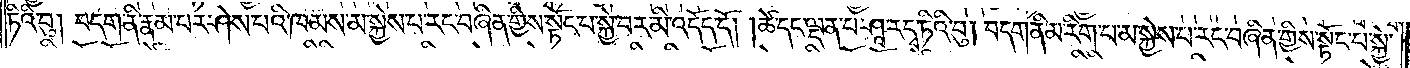ཏིའི་བུ། བདག་ནི་རྣམ་པར་ཤེས་པའི་ཁམས་མ་སྐྱེས་པ་རང་བཞིན་གྱིས་སྟོང་པ་སྐྱེ་བར་མི་འདོད་དོ། །ཚེ་དང་ལྡན་པ་ཤཱ་ར་དྭ་ཏིའི་བུ། བདག་ནི་མ་རིག་པ་མ་སྐྱེས་པ་རང་བཞིན་གྱིས་སྟོང་པ་སྐྱེ་
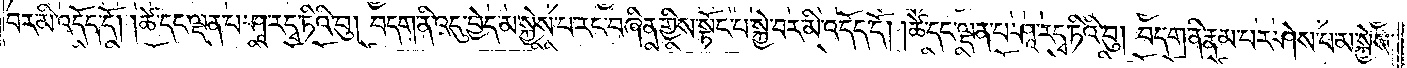བར་མི་འདོད་དོ། །ཚེ་དང་ལྡན་པ་ཤཱ་ར་དྭ་ཏིའི་བུ། བདག་ནི་འདུ་བྱེད་མ་སྐྱེས་པ་རང་བཞིན་གྱིས་སྟོང་པ་སྐྱེ་བར་མི་འདོད་དོ། །ཚེ་དང་ལྡན་པ་ཤཱ་ར་དྭ་ཏིའི་བུ། བདག་ནི་རྣམ་པར་ཤེས་པ་མ་སྐྱེས་
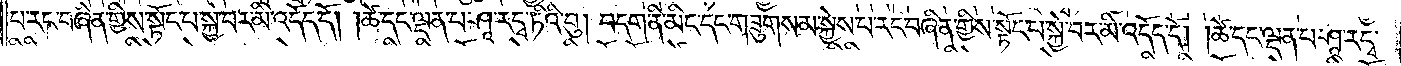པ་རང་བཞིན་གྱིས་སྟོང་པ་སྐྱེ་བར་མི་འདོད་དོ། །ཚེ་དང་ལྡན་པ་ཤཱ་ར་དྭ་ཏིའི་བུ། བདག་ནི་མིང་དང་གཟུགས་མ་སྐྱེས་པ་རང་བཞིན་གྱིས་སྟོང་པ་སྐྱེ་བར་མི་འདོད་དོ། །ཚེ་དང་ལྡན་པ་ཤཱ་ར་དྭ་
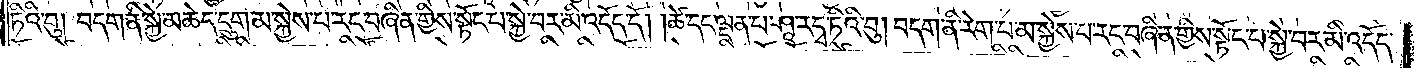ཏིའི་བུ། བདག་ནི་སྐྱེ་མཆེད་དྲུག་མ་སྐྱེས་པ་རང་བཞིན་གྱིས་སྟོང་པ་སྐྱེ་བར་མི་འདོད་དོ། །ཚེ་དང་ལྡན་པ་ཤཱ་ར་དྭ་ཏིའི་བུ། བདག་ནི་རེག་པ་མ་སྐྱེས་པ་རང་བཞིན་གྱིས་སྟོང་པ་སྐྱེ་བར་མི་འདོད་
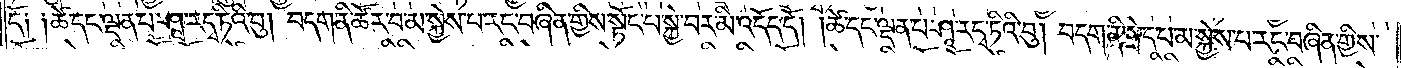དོ༏ ༏ཚེ་དང་ལྡན་པ་ཤཱ་ར་དྭ་ཏིའི་བུ། བདག་ནི་ཚོར་བ་མ་སྐྱེས་པ་རང་བཞིན་གྱིས་སྟོང་པ་སྐྱེ་བར་མི་འདོད་དོ། །ཚེ་དང་ལྡན་པ་ཤཱ་ར་དྭ་ཏིའི་བུ། བདག་ནི་སྲེད་པ་མ་སྐྱེས་པ་རང་བཞིན་གྱིས་
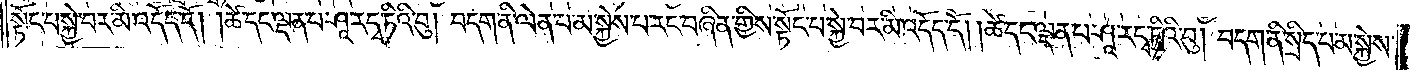སྟོང་པ་སྐྱེ་བར་མི་འདོད་དོ། །ཚེ་དང་ལྡན་པ་ཤཱ་ར་དྭ་ཏིའི་བུ། བདག་ནི་ལེན་པ་མ་སྐྱེས་པ་རང་བཞིན་གྱིས་སྟོང་པ་སྐྱེ་བར་མི་འདོད་དོ། །ཚེ་དང་ལྡན་པ་ཤཱ་ར་དྭ་ཏིའི་བུ། བདག་ནི་སྲིད་པ་མ་སྐྱེས་
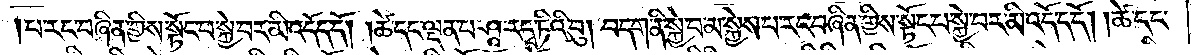པ་རང་བཞིན་གྱིས་སྟོང་པ་སྐྱེ་བར་མི་འདོད་དོ། །ཚེ་དང་ལྡན་པ་ཤཱ་ར་དྭ་ཏིའི་བུ། བདག་ནི་སྐྱེ་བ་མ་སྐྱེས་པ་རང་བཞིན་གྱིས་སྟོང་པ་སྐྱེ་བར་མི་འདོད་དོ། །ཚེ་དང་
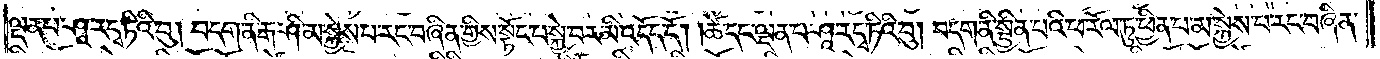ལྡན་པ་ཤཱ་ར་དྭ་ཏིའི་བུ། བདག་ནི་རྒ་ཤི་མ་སྐྱེས་པ་རང་བཞིན་གྱིས་སྟོང་པ་སྐྱེ་བར་མི་འདོད་དོ། །ཚེ་དང་ལྡན་པ་ཤཱ་ར་དྭ་ཏིའི་བུ། བདག་ནི་སྦྱིན་པའི་ཕ་རོལ་ཏུ་ཕྱིན་པ་མ་སྐྱེས་པ་རང་བཞིན་
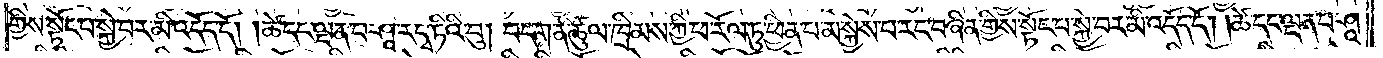གྱིས་སྟོང་པ་སྐྱེ་བར་མི་འདོད་དོ། །ཚེ་དང་ལྡན་པ་ཤཱ་ར་དྭ་ཏིའི་བུ། བདག་ནི་ཚུལ་ཁྲིམས་ཀྱི་ཕ་རོལ་ཏུ་ཕྱིན་པ་མ་སྐྱེས་པ་རང་བཞིན་གྱིས་སྟོང་པ་སྐྱེ་བར་མི་འདོད་དོ། །ཚེ་དང་ལྡན་པ་ཤཱ་
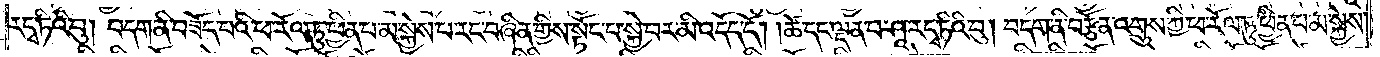ར་དྭ་ཏིའི་བུ། བདག་ནི་བཟོད་པའི་ཕ་རོལ་ཏུ་ཕྱིན་པ་མ་སྐྱེས་པ་རང་བཞིན་གྱིས་སྟོང་པ་སྐྱེ་བར་མི་འདོད་དོ། །ཚེ་དང་ལྡན་པ་ཤཱ་ར་དྭ་ཏིའི་བུ། བདག་ནི་བརྩོན་འགྲུས་ཀྱི་ཕ་རོལ་ཏུ་ཕྱིན་པ་མ་སྐྱེས་
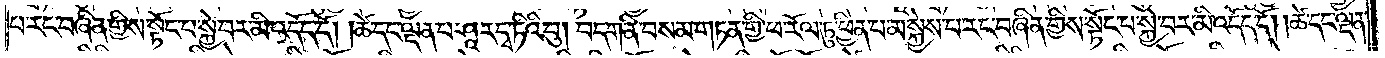པ་རང་བཞིན་གྱིས་སྟོང་པ་སྐྱེ་བར་མི་འདོད་དོ། །ཚེ་དང་ལྡན་པ་ཤཱ་ར་དྭ་ཏིའི་བུ། བདག་ནི་བསམ་གཏན་གྱི་ཕ་རོལ་ཏུ་ཕྱིན་པ་མ་སྐྱེས་པ་རང་བཞིན་གྱིས་སྟོང་པ་སྐྱེ་བར་མི་འདོད་དོ། །ཚེ་དང་ལྡན་
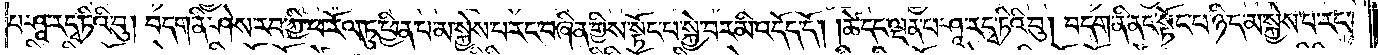པ་ཤཱ་ར་དྭ་ཏིའི་བུ། བདག་ནི་ཤེས་རབ་ཀྱི་ཕ་རོལ་ཏུ་ཕྱིན་པ་མ་སྐྱེས་པ་རང་བཞིན་གྱིས་སྟོང་པ་སྐྱེ་བར་མི་འདོད་དོ། །ཚེ་དང་ལྡན་པ་ཤཱ་ར་དྭ་ཏིའི་བུ། བདག་ནི་ནང་སྟོང་པ་ཉིད་མ་སྐྱེས་པ་རང་
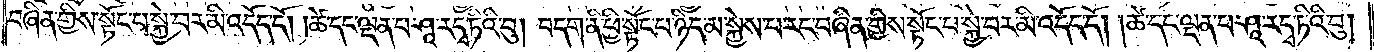བཞིན་གྱིས་སྟོང་པ་སྐྱེ་བར་མི་འདོད་དོ། །ཚེ་དང་ལྡན་པ་ཤཱ་ར་དྭ་ཏིའི་བུ། བདག་ནི་ཕྱི་སྟོང་པ་ཉིད་མ་སྐྱེས་པ་རང་བཞིན་གྱིས་སྟོང་པ་སྐྱེ་བར་མི་འདོད་དོ། །ཚེ་དང་ལྡན་པ་ཤཱ་ར་དྭ་ཏིའི་བུ།
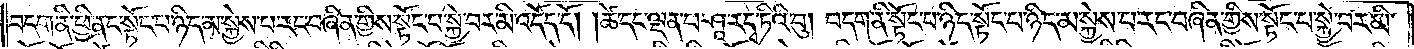བདག་ནི་ཕྱི་ནང་སྟོང་པ་ཉིད་མ་སྐྱེས་པ་རང་བཞིན་གྱིས་སྟོང་པ་སྐྱེ་བར་མི་འདོད་དོ། །ཚེ་དང་ལྡན་པ་ཤཱ་ར་དྭ་ཏིའི་བུ། བདག་ནི་སྟོང་པ་ཉིད་སྟོང་པ་ཉིད་མ་སྐྱེས་པ་རང་བཞིན་གྱིས་སྟོང་པ་སྐྱེ་བར་མི་
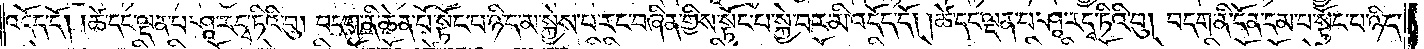འདོད་དོ། །ཚེ་དང་ལྡན་པ་ཤཱ་ར་དྭ་ཏིའི་བུ། བདག་ནི་ཆེན་པོ་སྟོང་པ་ཉིད་མ་སྐྱེས་པ་རང་བཞིན་གྱིས་སྟོང་པ་སྐྱེ་བར་མི་འདོད་དོ། །ཚེ་དང་ལྡན་པ་ཤཱ་ར་དྭ་ཏིའི་བུ། བདག་ནི་དོན་དམ་པ་སྟོང་པ་ཉིད་
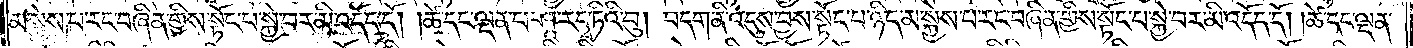མ་སྐྱེས་པ་རང་བཞིན་གྱིས་སྟོང་པ་སྐྱེ་བར་མི་འདོད་དོ། །ཚེ་དང་ལྡན་པ་ཤཱ་ར་དྭ་ཏིའི་བུ། བདག་ནི་འདུས་བྱས་སྟོང་པ་ཉིད་མ་སྐྱེས་པ་རང་བཞིན་གྱིས་སྟོང་པ་སྐྱེ་བར་མི་འདོད་དོ། །ཚེ་དང་ལྡན་
